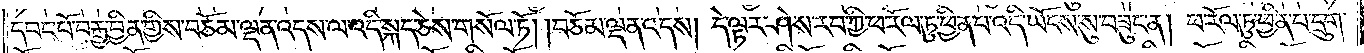དབང་པོ་བརྒྱ་བྱིན་གྱིས་བཅོམ་ལྡན་འདས་ལ་འདི་སྐད་ཅེས་གསོལ་ཏོ། །བཅོམ་ལྡན་འདས། དེ་ལྟར་ཤེས་རབ་ཀྱི་ཕ་རོལ་ཏུ་ཕྱིན་པ་འདི་ཡོངས་སུ་བཟུང་ན། ཕ་རོལ་ཏུ་ཕྱིན་པ་དྲུག་
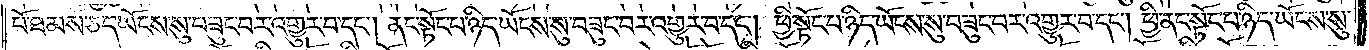པོ་ཐམས་ཅད་ཡོངས་སུ་བཟུང་བར་འགྱུར་བ་དང༌། ནང་སྟོང་པ་ཉིད་ཡོངས་སུ་བཟུང་བར་འགྱུར་བ་དང༌། ཕྱི་སྟོང་པ་ཉིད་ཡོངས་སུ་བཟུང་བར་འགྱུར་བ་དང༌། ཕྱི་ནང་སྟོང་པ་ཉིད་ཡོངས་སུ་
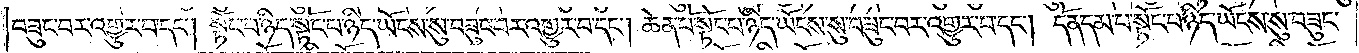བཟུང་བར་འགྱུར་བ་དང༌། སྟོང་པ་ཉིད་སྟོང་པ་ཉིད་ཡོངས་སུ་བཟུང་བར་འགྱུར་བ་དང༌། ཆེན་པོ་སྟོང་པ་ཉིད་ཡོངས་སུ་བཟུང་བར་འགྱུར་བ་དང༌། དོན་དམ་པ་སྟོང་པ་ཉིད་ཡོངས་སུ་བཟུང་
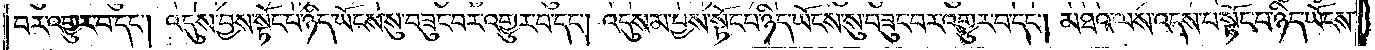བར་འགྱུར་བ་དང༌། འདུས་བྱས་སྟོང་པ་ཉིད་ཡོངས་སུ་བཟུང་བར་འགྱུར་བ་དང༌། འདུས་མ་བྱས་སྟོང་པ་ཉིད་ཡོངས་སུ་བཟུང་བར་འགྱུར་བ་དང༌། མཐའ་ལས་འདས་པ་སྟོང་པ་ཉིད་ཡོངས་
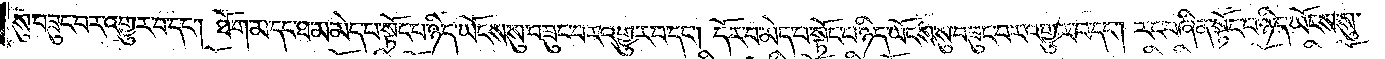སུ་བཟུང་བར་འགྱུར་བ་དང༌། ཐོག་མ་དང་ཐ་མ་མེད་པ་སྟོང་པ་ཉིད་ཡོངས་སུ་བཟུང་བར་འགྱུར་བ་དང༌། དོར་བ་མེད་པ་སྟོང་པ་ཉིད་ཡོངས་སུ་བཟུང་བར་འགྱུར་བ་དང༌། རང་བཞིན་སྟོང་པ་ཉིད་ཡོངས་སུ་
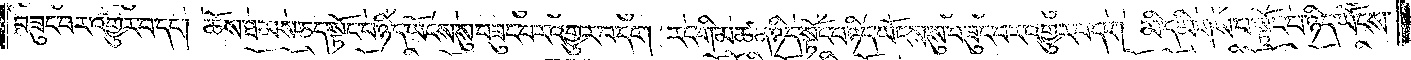བཟུང་བར་འགྱུར་བ་དང༌། ཆོས་ཐམས་ཅད་སྟོང་པ་ཉིད་ཡོངས་སུ་བཟུང་བར་འགྱུར་བ་དང༌། རང་གི་མཚན་ཉིད་སྟོང་པ་ཉིད་ཡོངས་སུ་བཟུང་བར་འགྱུར་བ་དང༌། མི་དམིགས་པ་སྟོང་པ་ཉིད་ཡོངས་
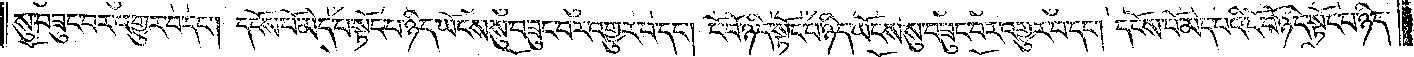སུ་བཟུང་བར་འགྱུར་བ་དང༌། དངོས་པོ་མེད་པ་སྟོང་པ་ཉིད་ཡོངས་སུ་བཟུང་བར་འགྱུར་བ་དང༌། ངོ་བོ་ཉིད་སྟོང་པ་ཉིད་ཡོངས་སུ་བཟུང་བར་འགྱུར་བ་དང༌། དངོས་པོ་མེད་པའི་ངོ་བོ་ཉིད་སྟོང་པ་ཉིད་
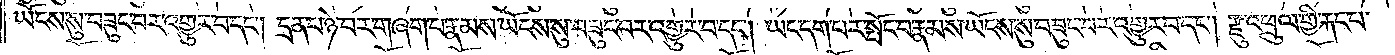ཡོངས་སུ་བཟུང་བར་འགྱུར་བ་དང༌། དྲན་པ་ཉེ་བར་གཞག་པ་རྣམས་ཡོངས་སུ་བཟུང་བར་འགྱུར་བ་དང༌། ཡང་དག་པར་སྤོང་བ་རྣམས་ཡོངས་སུ་བཟུང་བར་འགྱུར་བ་དང༌། རྫུ་འཕྲུལ་གྱི་རྐང་པ་
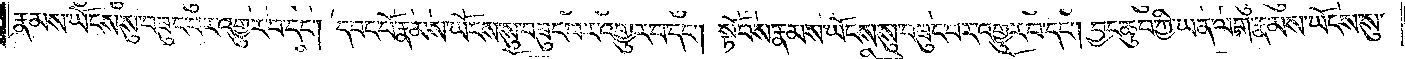རྣམས་ཡོངས་སུ་བཟུང་བར་འགྱུར་བ་དང༌། དབང་པོ་རྣམས་ཡོངས་སུ་བཟུང་བར་འགྱུར་བ་དང༌། སྟོབས་རྣམས་ཡོངས་སུ་བཟུང་བར་འགྱུར་བ་དང༌། བྱང་ཆུབ་ཀྱི་ཡན་ལག་རྣམས་ཡོངས་སུ་
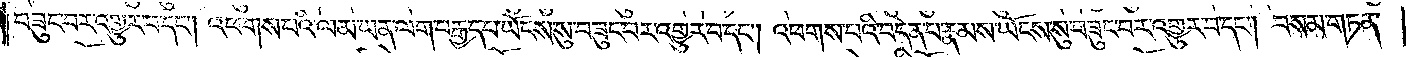བཟུང་བར་འགྱུར་བ་དང༌། འཕགས་པའི་ལམ་ཡན་ལག་བརྒྱད་པ་ཡོངས་སུ་བཟུང་བར་འགྱུར་བ་དང༌། འཕགས་པའི་བདེན་པ་རྣམས་ཡོངས་སུ་བཟུང་བར་འགྱུར་བ་དང༌། །བསམ་གཏན་
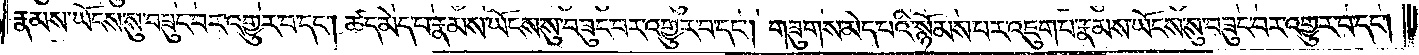རྣམས་ཡོངས་སུ་བཟུང་བར་འགྱུར་བ་དང༌། ཚད་མེད་པ་རྣམས་ཡོངས་སུ་བཟུང་བར་འགྱུར་བ་དང༌། གཟུགས་མེད་པའི་སྙོམས་པར་འཇུག་པ་རྣམས་ཡོངས་སུ་བཟུང་བར་འགྱུར་བ་དང༌།
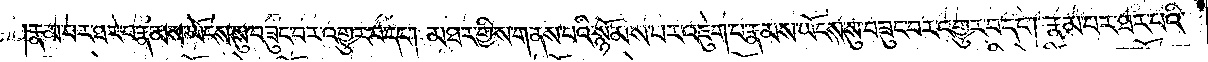རྣམ་པར་ཐར་པ་རྣམས་ཡོངས་སུ་བཟུང་བར་འགྱུར་བ་དང༌། མཐར་གྱིས་གནས་པའི་སྙོམས་པར་འཇུག་པ་རྣམས་ཡོངས་སུ་བཟུང་བར་འགྱུར་བ་དང༌། རྣམ་པར་ཐར་པའི་
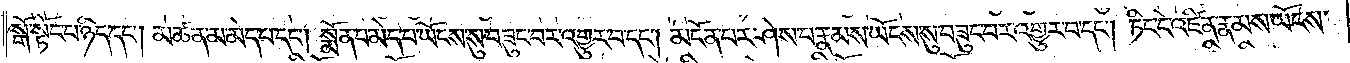སྒོ་སྟོང་པ་ཉིད་དང༌། མཚན་མ་མེད་པ་དང༌། སྨོན་པ་མེད་པ་ཡོངས་སུ་བཟུང་བར་འགྱུར་བ་དང༌། མངོན་པར་ཤེས་པ་རྣམས་ཡོངས་སུ་བཟུང་བར་འགྱུར་བ་དང༌། ཏིང་ངེ་འཛིན་རྣམས་ཡོངས་
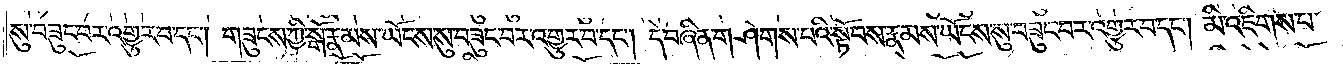སུ་བཟུང་བར་འགྱུར་བ་དང༌། གཟུངས་ཀྱི་སྒོ་རྣམས་ཡོངས་སུ་བཟུང་བར་འགྱུར་བ་དང༌། དེ་བཞིན་གཤེགས་པའི་སྟོབས་རྣམས་ཡོངས་སུ་བཟུང་བར་འགྱུར་བ་དང༌། མི་འཇིགས་པ་
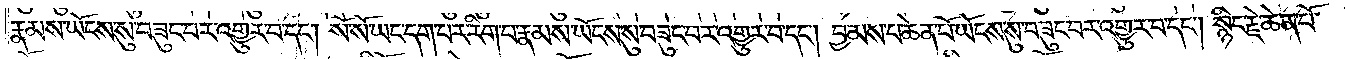རྣམས་ཡོངས་སུ་བཟུང་བར་འགྱུར་བ་དང༌། སོ་སོ་ཡང་དག་པར་རིག་པ་རྣམས་ཡོངས་སུ་བཟུང་བར་འགྱུར་བ་དང༌། བྱམས་པ་ཆེན་པོ་ཡོངས་སུ་བཟུང་བར་འགྱུར་བ་དང༌། སྙིང་རྗེ་ཆེན་པོ་
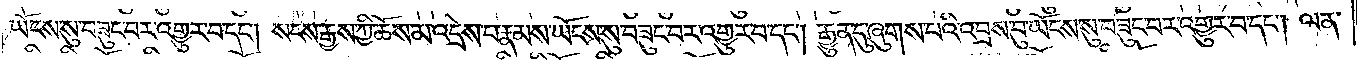ཡོངས་སུ་བཟུང་བར་འགྱུར་བ་དང༌། སངས་རྒྱས་ཀྱི་ཆོས་མ་འདྲེས་པ་རྣམས་ཡོངས་སུ་བཟུང་བར་འགྱུར་བ་དང༌། རྒྱུན་དུ་ཞུགས་པའི་འབྲས་བུ་ཡོངས་སུ་བཟུང་བར་འགྱུར་བ་དང༌། ལན་
